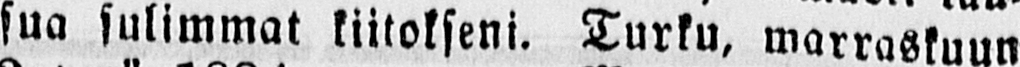sua sulimmat kiitokseni. Turku, marraskuun
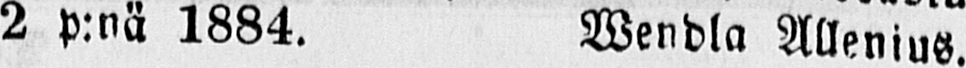2 p:nä 1884. Wendla Allenius.
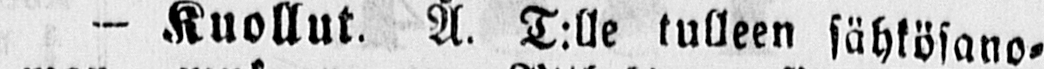— Kuollut. Å T:lle tulleen sähkösano-
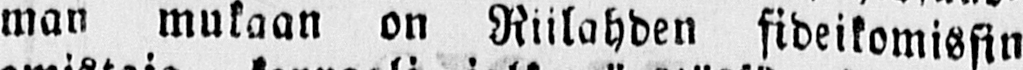man mukaan on Riilahden sideikomissin
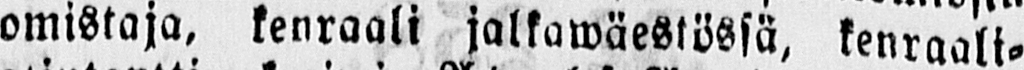omistaja, kenraali jalkawäestössä, kenraali-
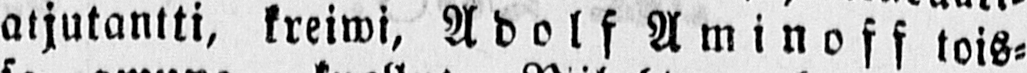atjutantti, kreiwi, Adolf Aminoff tois-
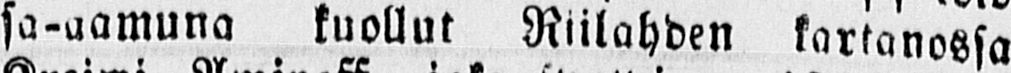sa-aamuna kuollut Riilahden kartanossa.
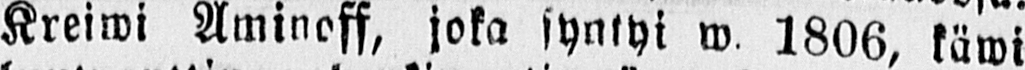Kreiwi Aminoff, joka syntyi w. 1806, käwi
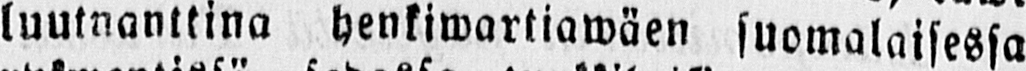luutnanttina henkiwartiawäen suomalaisessa
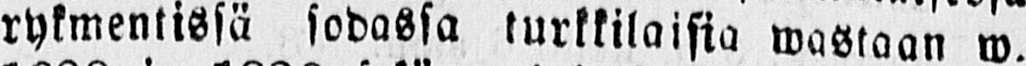rykmentissä sodassa turkkilaisia wastaan w.
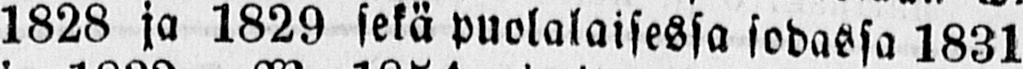1828 ja 1829 sekä puolalaisessa sodassa 1831
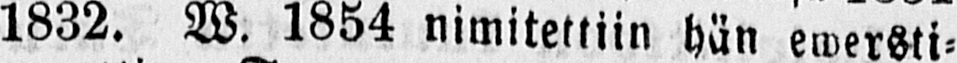1832. W. 1854 nimitettiin hän ewersti-
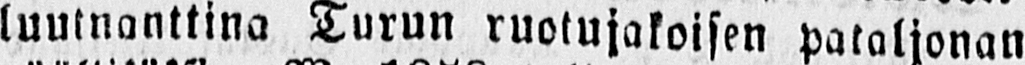luutnanttina Turun ruotujakoisen pataljonan
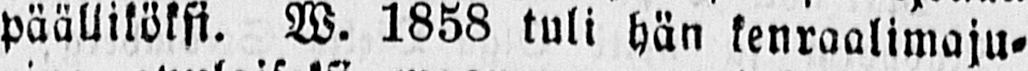päälliköksi. W. 1858 tuli hän kenraalimaju-
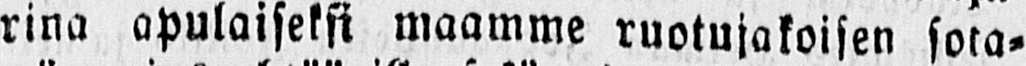rina apulaiseksi maamme ruotujakoisen sota-
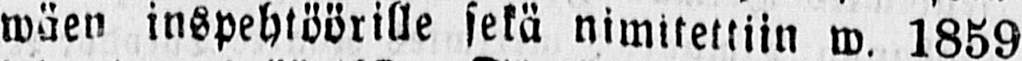wäen inspehtöörille sekä nimitettiin w. 1859
